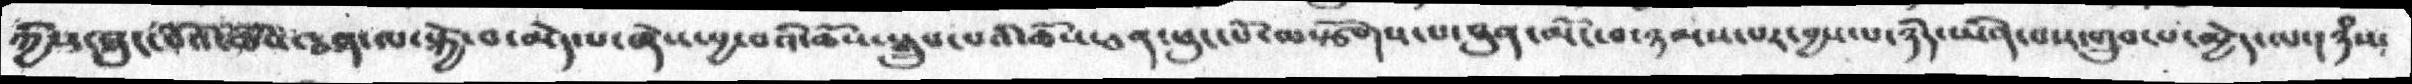ཀྱིས་ཕུང་བོའི་ཆོས་ཅན་ལ་སྐྱེ་བ་མེད་པ་ཞེས་བའི་ཆོས་སྒྲུབ་པའི་ཆོས་ཅན་ཕུང་པོ་ལསྩོགས་པ་ཐུན་མོང་བ་ཉམས་པར་བྱས་པ་ཉིད་ཡིན་པས་གྲུབ་པ་མྱེད་ལ་། ཉཾས་
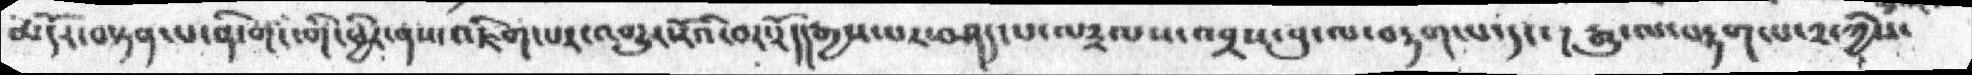མདོར་བསྟན་པ་ནི་གང་གི་ཕྱིར་ནས་འཇིག་པར་འགྱུར་རོའི་བར་རོ་།།རྒྱས་པར་བཤད་པ་ལ༣ལས་འབྲས་བུ་ལ་བརྟག་པ་དང་ །རྒྱུ་ལ་བརྟག་པ་༢་ཀྱིས་
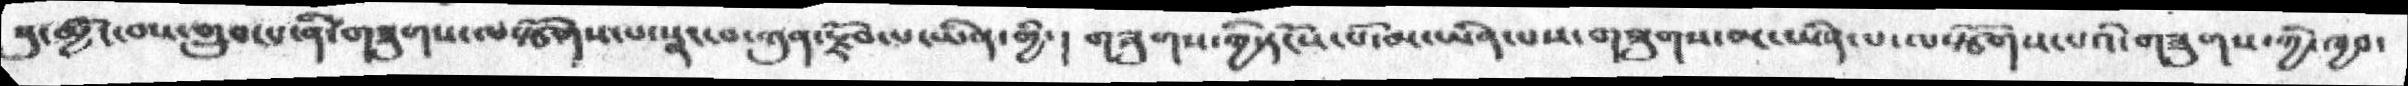སུ་མྱོང་བས་གྲུབ་པ་ནི་གཟུགས་ལསྩོགས་པ་སྣང་བ་ཀུན་རྗོབ་པ་ཡིན་གྱི་།  གཟུགས་ཀྱི་དངོས་པོ་མ་ཡིན་པས་གཟུགས་མ་ཡིན་པ་ལསྩོགས་པའི་གཟུགས་ཀྱི་ཁྱབ་
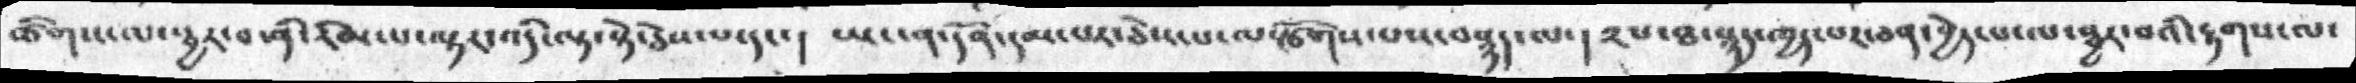ཚིགས་ལ་སྦྱར་བ་ནི་རིམ་པ་ལྟར་འདི་ལྟ་སྟེ་ཅེས་པ་དང་།  ཡང་ན་དོན་དམ་པར་ཅེས་པ་ལསྩོགས་པས་བསྙད་ལ་། ༢པ་ཐ་སྙད་ཁྱད་པར་ཅན་བྱེད་པ་ལ་སྦྱར་བའི་རྟགས་ལ་
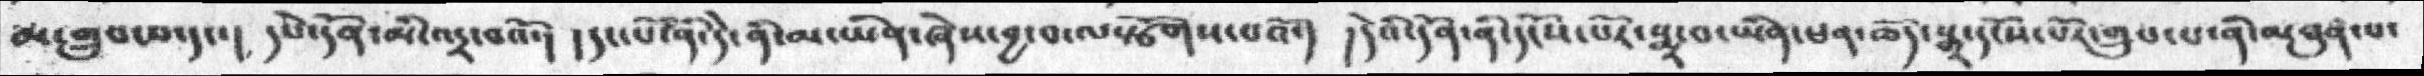མ་གྲུབ་པ་དང་།  དཔེ་དོན་མི་འདྲ་བའོ་།  །དང་པོ་ནི་དེ་ནི་མ་ཡིན་ཞེས་བྱ་ལསྩོགས་པའོ་།  །དེའི་དོན་ནི་དངོས་པར་སྨྲ་བ་ཡིན་ཕན་ཆོད་སྒྲ་དངོས་པོར་གྲུབ་པ་ནི་མཐུན་པ་
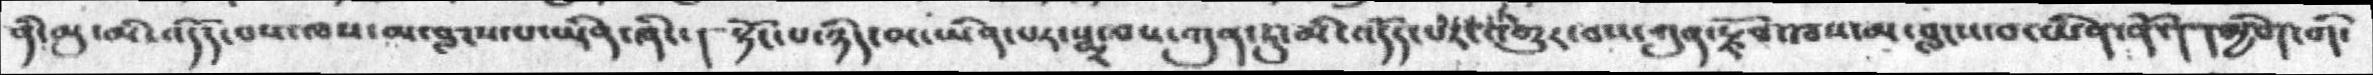ནི་མུ་མི་འདོད་པས་ཁས་མ་བླངས་པ་ཡིན་ཞིང་།  སྟོང་པ་ཉིད་མ་ཡིན་པར་སྨྲ་བས་ཀུན་ཏུ་མི་འདོད་པར་འགྱུར་བས་ཀུན་རྫོབ་ཁས་མ་བླངས་བ་ཡིན་ནོ་།  དམྱིག་གི་
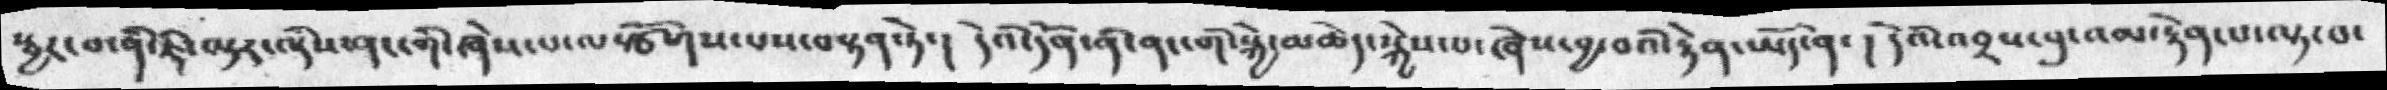སྦྱར་བ་ནི་ཇི་ལྟར་འདིས་ནང་གི་ཞེས་པ་ལསྩོགས་པས་བསྟན་ཏེ་།  དེའི་དོན་ནི་ནང་གི་སྐྱེ་མཆེད་སྐྱེས་པ་ཞེས་བྱ་བའི་རྟེན་ཡོད་ན་ ། དེའི་འབྲས་བུ་འམ་རྟེན་པ་ལྟ་བ་
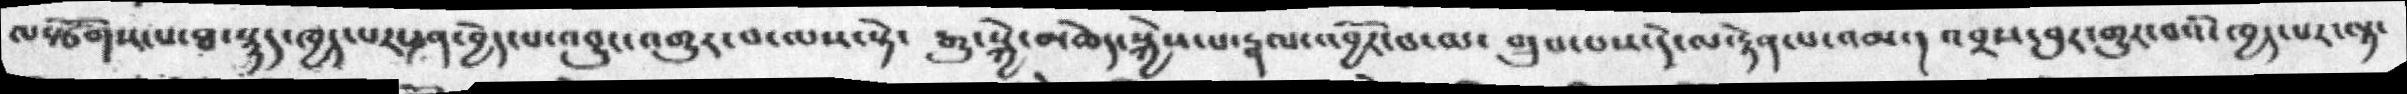ལསྩོགས་པ་ཐ་སྙད་ཁྱད་པར་ཅན་བྱེད་པ་འབྱུང་འགྱུར་བ་ལས་སྟེ་ རྒྱུ་སྐྱེ་མཆེད་སྐྱེས་པ་རྣལ་འབྱོར་བ་ལ་ གྲུབ་པས་དེ་ལ་རྟེན་པ་འམ་།  འབྲས་བུར་གྱུར་བའི་ཁྱད་པར་ལྟ་
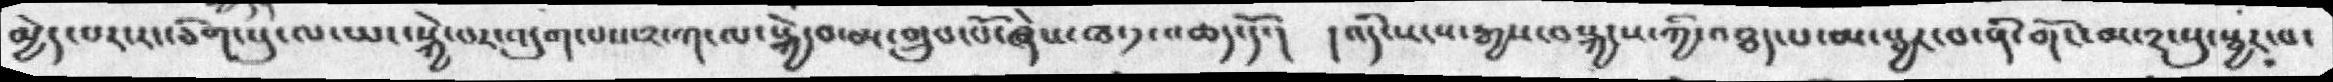མྱེད་པར་རང་ཅིག་པུ་ལ་ཡང་སྐྱེ་བར་འདུག་པས་༢་ཀ་ལ་སྐྱེ་བ་མ་གྲུབ་པོ་ཞེས་ཁ་༡་འཆད་དོ་།  །འདི་སངས་རྒྱས་བསྐྱངས་ཀྱི་འཐད་པ་མ་སྦྱར་བ་ནི་གོང་མ་༢་སུ་སྦྱར་བ་
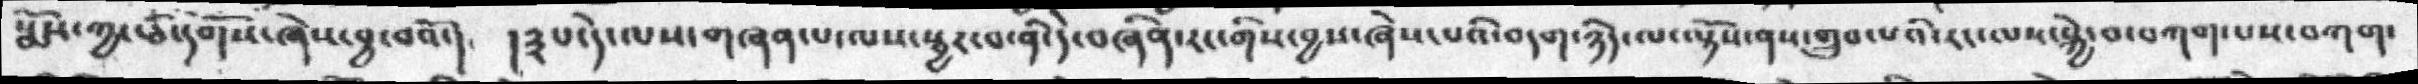སྨོས་ཀྱང་ཅི་དགོས་ཞེས་བྱ་བའོ་།  །༣པ་དེ་ལས་གཞན་པ་ལས་སྦྱར་པ་ནི་དེ་བཞིན་རང་གིས་བྱས་ཞེས་པའི་བདག་ཉིད་ལ་ལྟོས་ནས་གྲུབ་པའི་རང་ལས་སྐྱེ་བ་བཀག་པས་བཀག་
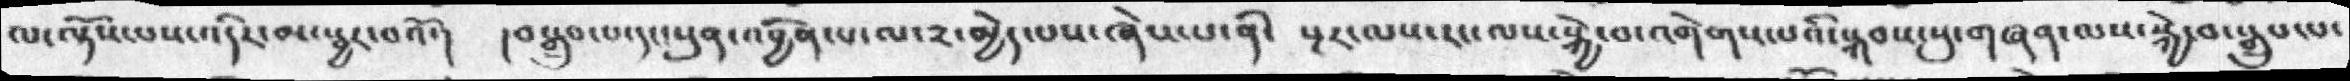ལ་ལྟོས་པས་འདིར་མ་སྦྱར་བའོ་།  །བསྒྲུབ་པ་དང་སུན་འབྱིན་པ་ལ་༢་མྱེད་པས་ཞེས་པ་ནི་  སྔར་ལས་རང་ལས་སྐྱེ་བ་འགེགས་པའི་སྐབས་སུ་གཞན་ལས་སྐྱེ་བ་སྒྲུབ་པ་
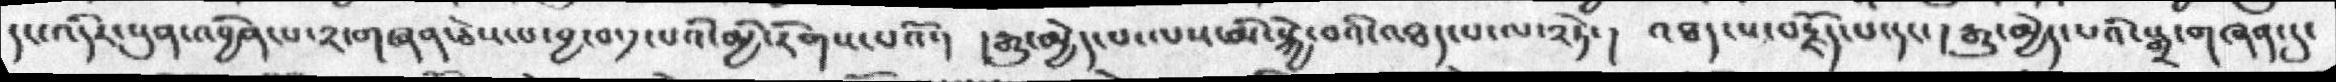དང་འདིར་སུན་འབྱིན་པ་༢་གཞན་ཅེས་པ་བྱ་བ་༡་པའི་མྱི་རིགས་པའོ་།  །རྒྱུ་མྱེད་པ་ལས་མི་སྐྱེ་བའི་འཐད་པ་ལ་༢ཏེ་།  འཐད་པ་བརྗོད་པ་དང་། རྒྱུ་མྱེད་པའི་སྒྲ་གཞན་དུ་
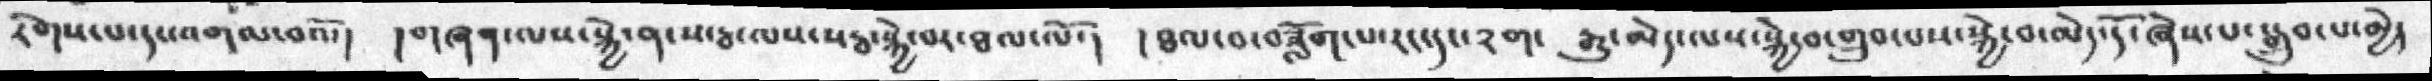རིགས་པ་དང་འགལ་བའོ་།  །གཞན་ལས་སྐྱེ་ན་ས་རྦ་ལས་སརྦ་སྐྱེ་བར་ཐལ་ལོ་།  །ཐལ་བ་བཟློག་པ་རང་དང་༢ག་  རྒྱུ་མེད་ལས་སྐྱེ་བ་གྲུབ་པས་སྐྱེ་བ་མེད་དོ་ཞེས་པ་སྒྲུབ་པ་མྱེད
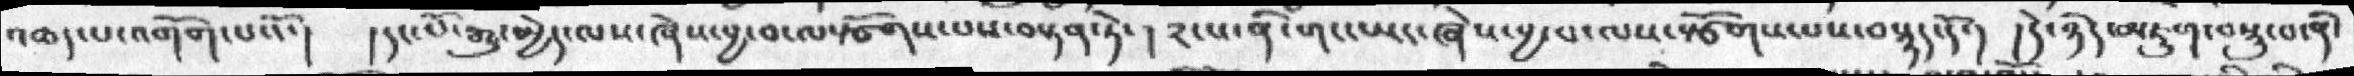འཆད་པ་འགོག་པའོ་།  །དང་པོ་རྒྱུ་མྱེད་ལས་ཞེས་བྱ་བ་ལསྩོགས་པས་བསྟན་ཏེ་། ༢པ་ནི་གང་ཡང་ཞེས་བྱ་བ་ལས་སྩོགས་པས་བསྙད་དོ་།  །དེ་ཉིད་མཇུག་བསྡུ་བ་ནི་
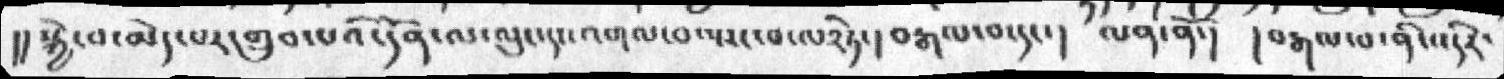།། སྐྱེ་བ་མེད་པར་གྲུབ་པའི་དོན་ལ་ལུང་དང་འགལ་བ་སྤང་བ་ལ༢ཏེ་།  བརྒལ་བ་དང་།  ལན་ནོ་།  །བརྒལ་པ་ནི་འདིར་
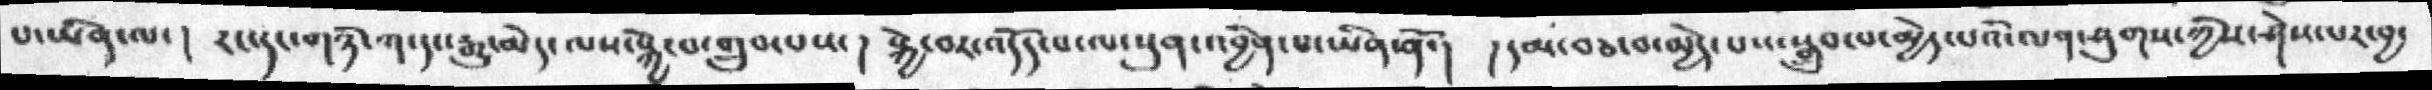པ་ཡིན་ལ་།  རང་དང་གཉི་ཀ་དང་རྒྱུ་མེད་ལས་སྐྱེ་བ་གྲུབ་པས་།  སྐྱེ་བར་འདོད་པ་ལ་སུན་འབྱིན་པ་ཡིན་ནོ་།  ། དམ་བཅ་བ་མྱེད་པས་སྒྲུབ་པ་མྱེད་པའི་ལན་ཤུགས་ཀྱིས་ཤེས་པར་བྱ་
